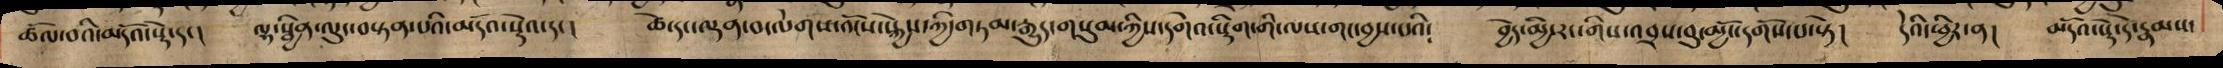ཆོལ་བའི་མདོའ་སྡེ་དང། ལྷ་སྦྱིན་ལུང་བསྟན་པའི་མདོའ་སྡེའ་དང། ཚེ་དང་ལྡན་བ་ལེགས་འོངས་སྐྱེས་ཀྱི་གཏམ་རྒྱུད་གསུམ་ཀྱིས་དགེའ་སྡིག་གི་ལས་གང་བྱས་པའི། བྱེད་མྱི་རང་གིས་འབྲས་བུ་མྱོང་དགོས་པ་སྟེ། དེའི་ཕྱིར་ན། མདོའ་སྡེ་དེ་རྣམས་
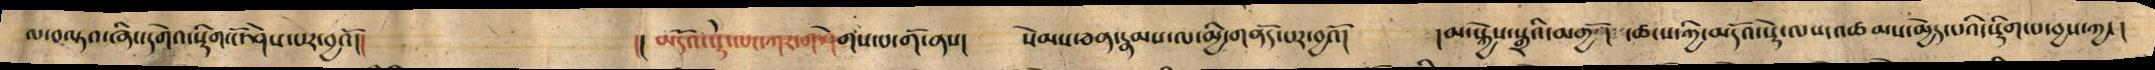ལ་བལྟའ་ཞིང་དགེའ་སྡིག་ངོ་ཤེས་པར་བྱའོ།། །། མདོའ་སྡེ་ལང་ཀར་གཤེགས་པ་གོ་ནས། སེམས་ཅན་རྣམས་ལ་མྱི་གནོད་པར་བྱའོ། །མ་སྐྱེས་སྒྲའི་མགྱོག ་ཚངས་ཀྱི་མདོའ་སྡེ་ལས་འཚམས་མྱེད་པའི་སྡིག་པ་བྱས་ཀྱང །
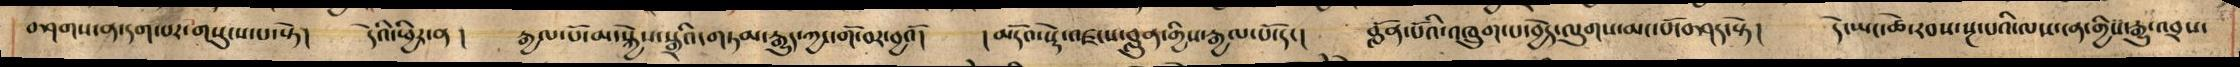བཤགས་ན་དག་པར་གསུངས་པ་སྟེ། དེའི་ཕྱིར་ན། རྒྱལ་པོ་མ་སྐྱེས་སྒྲའི་གཏམ་རྒྱུད་ཀྱང་གོ་བར་བྱའོ། །མདོའ་སྡེ་འཛངས་བླུན་གྱིས་རྒྱལ་པོ་དང། བློན་པོའི་འཁྲུག་པ་བྱེད་ལུགས་མང་པོ་བཤད་སྟེ། དེ་ཡང་ཚེ་རབས་སྔ་པའི་ལས་ངན་གྱིས་རྒྱུ་འབྲས་
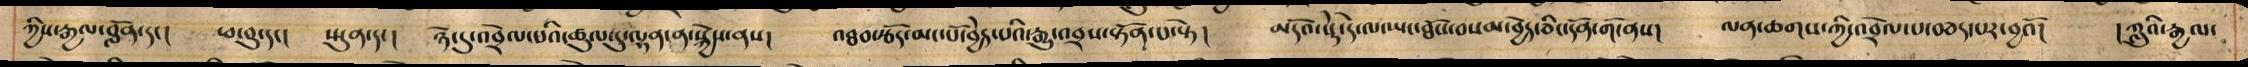ཀྱིས་རྒྱལ་བློན་དང། ཕ་བུ་དང། སྤུན་དང། ཉེ་དུ་འབྲེལ་པའི་ཚུལ་དུ་ལྷན་ན་སྐྱེས་ནས། འཐབ་རྩོད་མང་པོ་བྱེད་པའི་རྒྱུ་འབྲས་སྟོན་པ་སྟེ། མདོའ་སྡེ་དེ་ལ་ཡང་ཐོས་བསམ་བྱེད་ཅིང་དོན་གོ་ནས། ལན་ཆགས་ཀྱི་འབྲེལ་པ་བཅད་པར་བྱའོ། །ཀླུའི་རྒྱལ་
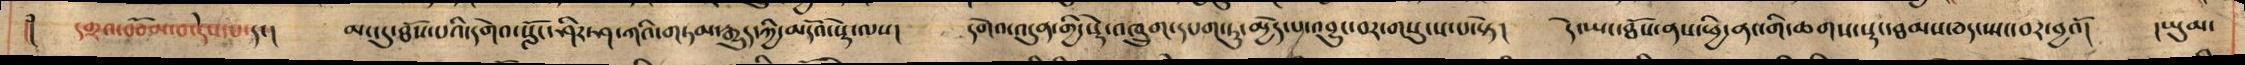།། དགྲའ་བཅོམ་པ་དེས་པ་དང། མང་དུ་ཐོས་པའི་དགེའ་སློང་ཤིར་ཤ་ཀའི་གཏན་རྒྱུད་ཀྱི་མདོའ་སྡེ་ལས། དགེའ་འདུན་གྱི་སྡེ་འཁྲུག་དཔག་ཏུ་མྱེད་པ་འབྱུང་བར་གསུངས་པ་སྟེ། དེ་ཡང་ཐོས་ནས་ཕྱི་ནང་གི་ཆགས་སྡང་ཐམས་ཅད་ཡང་བར་བྱའོ། །ཡུམ་
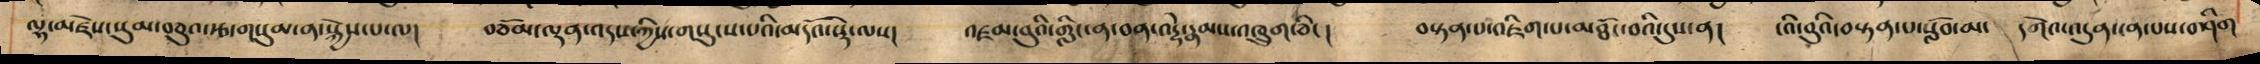ལྷ་མཛེས་སུམ་བཅུའ་རྩ་གསུམ་ན་སྐྱེས་པ་ལ། བཅོམ་ལྡན་འདས་ཀྱིས་གསུངས་པའི་མདོའ་སྡེ་ལས། འཛམ་བུའི་གླིང་ན་བན་བརྡེ་རྣམས་འཁྲུག་ཅིང ། བསྟན་པ་འཇིག་པ་མཐོང་བའི་དུས་ན། ངའི་བུའི་བསྟན་པ་སློབ་མ་ དགེའ་འདུན་ངན་པས་བཤིག
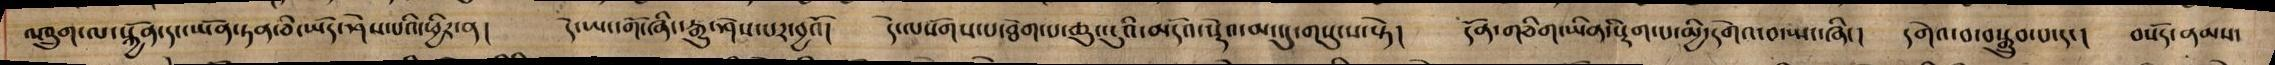འཁྲུག་ལ་སྐྱོན་དང་ཡོན་ཏན་ཅི་ཡོད་ཤེས་པའི་ཕྱིར་ན། དེ་ཨང་གོ་ཞིང་རྒྱུ་ཤེས་པར་བྱའོ། དེ་ལསོགས་པ་ཐེག་པ་ཆུང་ངུའི་མདོའ་སྡེའ་མང་དུ་གསུངས་སྟེ། དོན་གཅིག་ཡིན་སྡིག་པ་མྱི་དགེའ་བ་ཡང་ཞིང། དགེའ་བ་བསྒྲུབ་པ་དང། བསོད་ནམས་
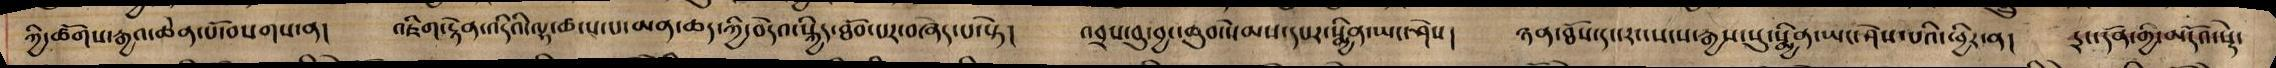ཀྱི་ཚོགས་རྒྱའ་ཆེན་པོ་བསགས་ན། འཇིག་རྟེན་འདིའི་ལྷ་ཚངས་པ་མན་ཆད་ཀྱི་བདེའ་སྐྱིད་ཐོབ་པར་བཞེད་པ་སྟེ། འབྲས་བུ་བྱང་ཆུབ་སེམས་དཔར་སྨྱིན་ཡང་ཤེས། ཉན་ཐོས་དང་རང་སངས་རྒྱས་སུ་སྨྱིན་ཡང་ཤེས་པའི་ཕྱིར་ན། དྲང་དོན་གྱི་མདོའ་སྡེ་
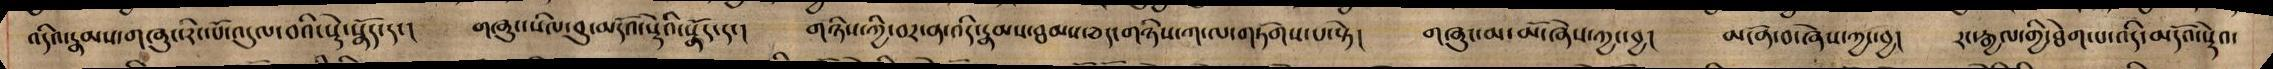འདིའ་རྣམས་གཞུང་རིང་པོ་འདུལ་བའི་སྡེ་སྣོད་དང། གཞུང་སིལ་བུ་མདོའ་སྡེའི་སྣོད་དང། གཉིས་ཀྱི་བར་ན་འདི་རྣམས་ཐམས་ཅད་གཉིས་ཀ་ལ་གཏོགས་པ་སྟེ། གཞཱུང་མ་མོ་ཞེས་ཀྱང་བྱ། མངོན་བ་ཞེས་ཀྱང་བྱ། རང་རྒྱལ་གྱི་ཐེག་པ་འདི་མདོའ་སྡེའ་
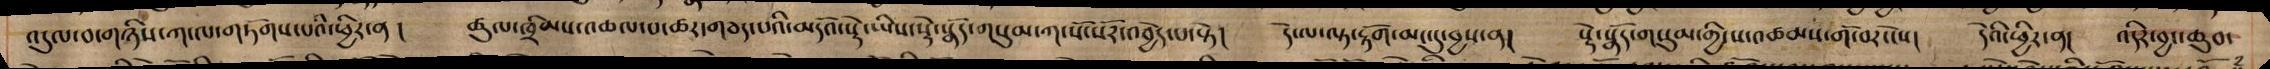འདུལ་བ་གཉིས་ཀ་ལ་གཏོགས་པའི་ཕྱིར་ན ། ཚུལ་ཁྲིམས་འཆལ་པ་ཚར་གཅད་པའི་མདོའ་སྡེ་ཡིས་སྡེ་སྣོད་གསུམ་ཀ་སོ་སོར་འབྱེད་པ་སྟེ། དེ་ལ་ལྟ་རྟོག་མང་དུ་བྱས་ན། སྡེ་སྣོད་གསུམ་གྱི་ས་འཚམས་གོ་བར་ངེས། དེའི་ཕྱིར་ན། འདིར་བྱང་ཆུབ་
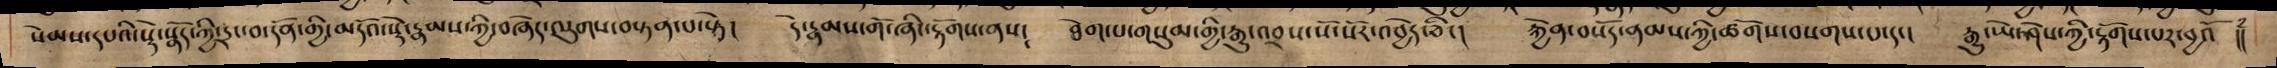སེམས་དཔའི་སྡེ་སྣོད་ཀྱི་དྲང་བ་དོན་གྱི་མདོའ་སྡེ་རྣམས་ཀྱི་བཞེད་ལུགས་བསྟན་པ་སྟེ། དེ་རྣམས་གོ་ཞིང་རྟོགས་ནས། ཐེག་པ་གསུམ་གྱི་རྒྱུ་འབྲས་སོ་སོར་འབྱེད་ཅིང། རྐྱེན་བསོད་ནམས་ཀྱི་ཚོགས་བསགས་པ་དང། རྒྱུ་ཡེ་ཤེས་ཀྱི་རྟོགས་པར་བྱའོ །།
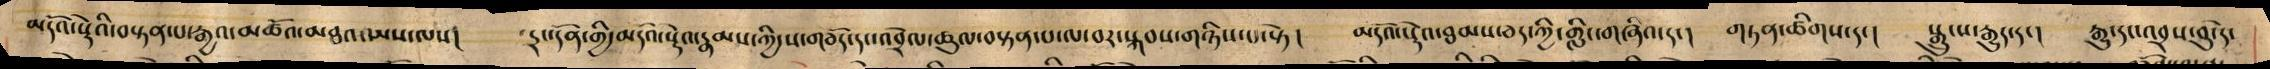མདོའ་སྡེའི་བསྟན་པ་རྒྱའ་མཚོའ་མཐའ་ཡས་ལས། དྲང་དོན་གྱི་མདོའ་སྡེའ་རྣམས་ཀྱི་ས་གཅོད་དང་འབྲེལ་ཚུལ་བསྟན་པ་ལ་བར་སྐབས་གཉིས་པ་སྟེ། མདོའ་སྡེའ་ཐམས་ཅད་ཀྱི་གླིང་གཞིའ་དང། གཏན་ཚིགས་དང། སྒྲུ་ས་རྒྱུད་དང། རྒྱུ་དང་འབྲས་བུ་དེ་
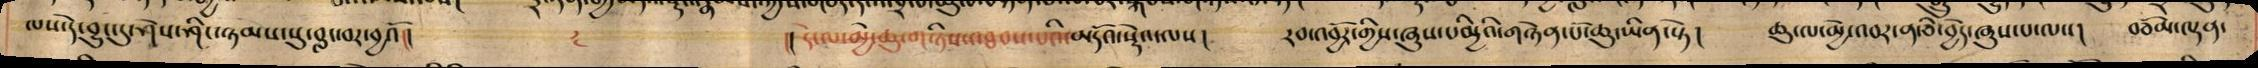ལས་དེ་བྱུང་དུ་ཤེས་ཤིང་ཉམས་སུ་བླང་བར་བྱའོ།། །། དེ་ལ་མྱེ་ཆུ་གཉིས་འཐབས་པའི་མདོའ་སྡེའ་ལས། རབ་འབྱོར་གྱིས་ཞུས་པམྱིའི་གཉེན་པོ་ཆུ་ཡིན་སྟེ། ཆུ་ལ་མྱེ་འབར་ན་ཅི་བྱེད་ཞུས་པ་ལས། བཅོམ་ལྡན་
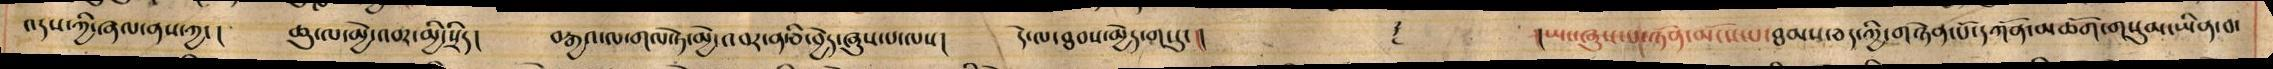འདས་ཀྱི་ཞལ་ནས་ཀྱང། ཆུ་ལ་མྱེ་འབར་མྱི་སྲིད། བརྒྱའ་ལ་གལ་ཏེ་མྱེ་འབར་ན་ཅི་བྱེད་ཞུས་པ་ལས། དེ་ལ་ཐབས་མྱེད་ག་དུ་།། ༈ །།ཡང་ཞུས་པ་ཉོན་མོངས་པ་ཐམས་ཅད་ཀྱི་གཉེན་པོ་དཀོན་མཆོག་གསུམ་ཡིན་བ་
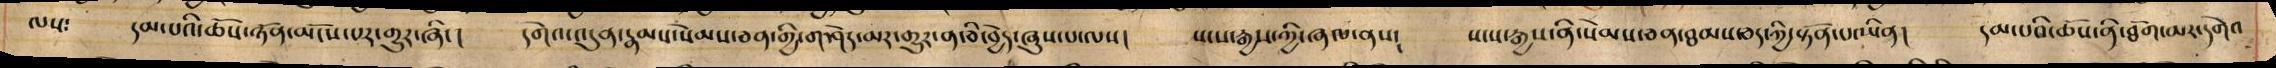ལས: དམ་པའི་ཆོས་ཉོན་མོངས་པར་གྱུར་ཞིང ། དགེའ་འདུན་རྣམས་སེམས་ཅན་གྱི་གཤེད་མར་གྱུར་ན་ཅི་བྱེད་ཞུས་པ་ལས། སངས་རྒྱས་ཀྱི་ཞལ་ནས། སངས་རྒྱས་ནི་སེམས་ཅན་ཐམས་ཅད་ཀྱི་སྟོན་པ་ཡིན། དམ་པའི་ཆོས་ནི་ཐོག་མར་དགེའ
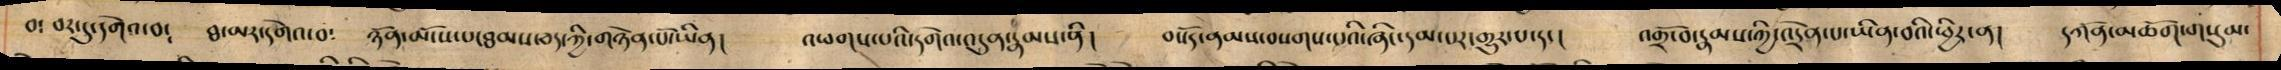བ: བར་དུ་དགེའ་བ་ ཐ་མར་དགེའ་བ་ ཉོན་མོངས་པ་ཐམས་ཅད་ཀྱི་གཉེན་པོ་ཡིན། འཕགས་པའི་དགེའ་འདུན་རྣམས་ནི། བསོད་ནམས་བསགས་པའི་ཞིང་དམ་པར་གྱུར་པ་དང། འགྲོ་བ་རྣམས་ཀྱི་འདྲེན་པ་ཡིན་བའི་ཕྱིར་ན། དཀོན་མཆོག་གསུམ་
